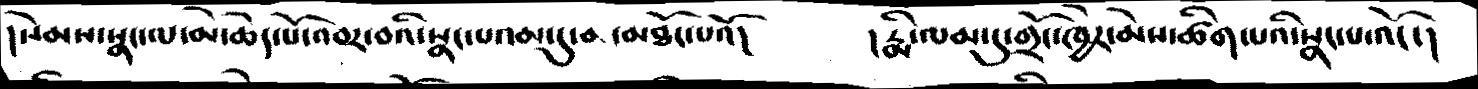།སེམས་སྣང་ལ་མེ་ཆེད་པོ་འབར་བའི་སྣང་པའམ་དུ་བ་མཐོང་པའོ།        །རྨི་ལམ་དུ་གྲོང་ཁྱེར་མེས་ཚིག་པའི་སྣང་པ་འོང་།
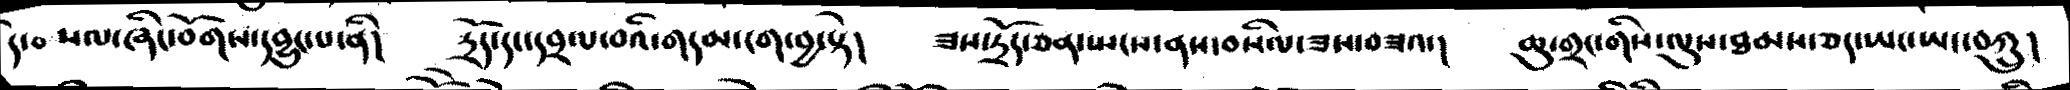དེ་བསལ་ཞིང་བོགས་དབྱུང་པ་ནི།  དྲོད་དང་དབྲལ་བའི་གདམ་ངག་བྱ་སྟེ།    ཟས་དྲོད་ཅན་སྤངས་ནས་བསིལ་ཟས་བཟའ་།  ཆུ་གྲང་གིས་ལུས་ཐམས་ཅད་ཡང་ཡང་བཀྲུ།
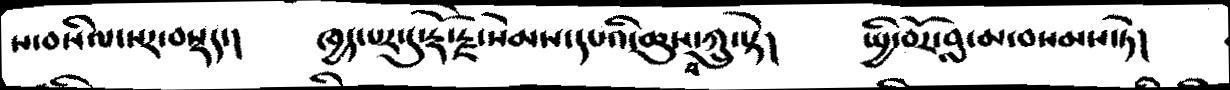ས་བསིལ་སར་བསྡད་།   ཁྱད་པར་དུ་རྡོ་རྗེ་སེམས་དཔའི་ཆུས་བཀྲུ་སྟེ།   སྤྱི་བོར་བླ་མ་བསམས་ཏེ།
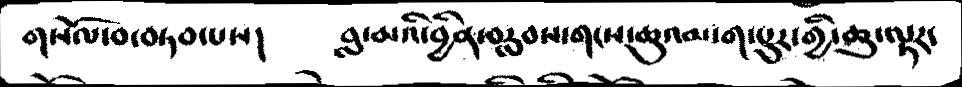གསོལ་བ་བཏབས་པས།   བླ་མའི་བྱིན་བརླབས་གངས་ཆུའམ་ག་པུར་གྱི་ཆུ་ལྟར་
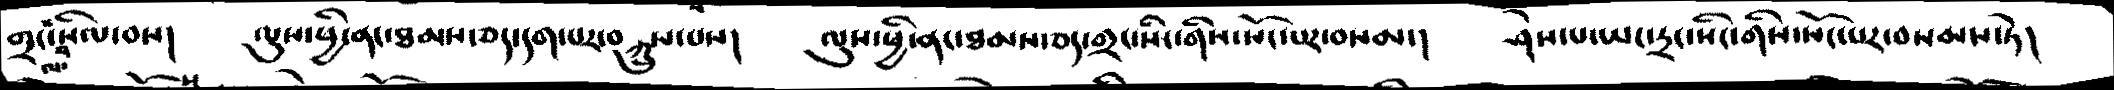གྲང་ལ་བསིལ་བས།  ལུས་ཕྱི་ནང་ཐམས་ཅད་དག་པར་བཀྲུས་པས།   ལུས་ཕྱི་ནང་ཐམས་ཅད་གྲང་སིང་གིས་སོང་པར་བསམ་།   ཤེས་པ་ཡང་དྲང་སིང་གིས་སོང་པར་བསམས་ཏེ།
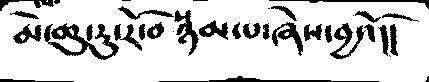མེ་ཆུ་རུ་རོ་བསྙམ་པ་ཞེས་བྱའོ།།
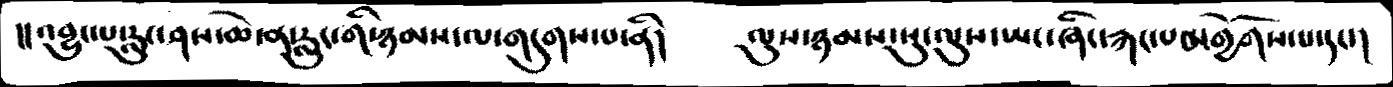།།འབྱུང་པ་རླུང་ཤས་ཆེ་ན་རླུང་གི་ཉམས་ལ་གདུགས་པ་ནི།     ལུས་ཉམས་སུ་ལུས་ཡང་ཞིང་རྐང་པ་འགྱོགས་པ་དང་།
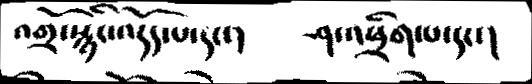འགྲོ་སྙིང་འདོད་པ་དང་།   ཤ་འཕྲིག་པ་དང་།
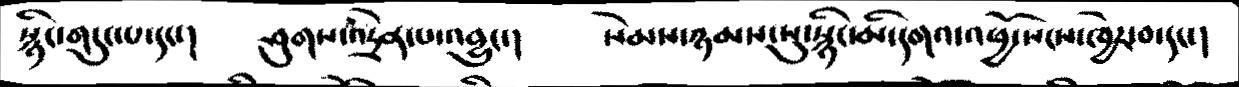སྙིང་གདུང་པ་དང་།    ཤུགས་འདྲེན་པ་འབྱུང་།    སེམས་ཉམས་སུ་སྙིང་མི་དགའ་འཕྱོ་སངས་ཁྱེར་བ་དང་།
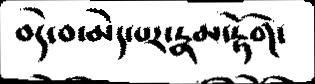བདེ་བ་མེད་པར་རྣམ་རྟོག་
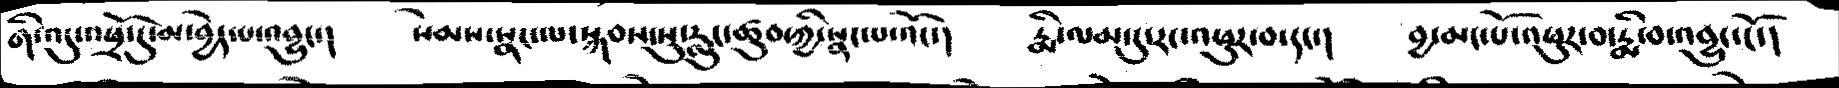གི་འདུ་འཕྲོ་དུ་མ་བྱེད་པ་འབྱུང་།    སེམས་སྣང་ལ་སྐབས་སུ་རླུང་ཚུབ་ཀྱི་སྣང་པ་འོང་།    རྨི་ལམ་དུ་རང་འཕུར་བ་དང་།    བྱ་མང་པོ་འཕུར་བ་རྨི་བ་འབྱུང་ངོ་།
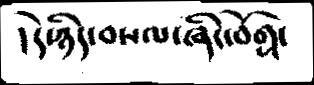། དེ་ཉིད་བསལ་ཞིང་བོགས།
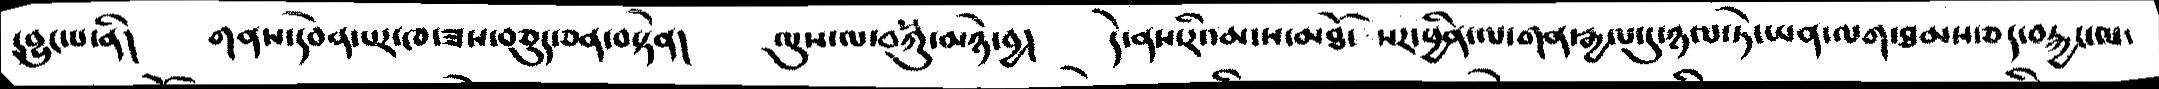དབྱུང་པ་ནི།    གནས་དབེན་པར་ཁ་ཟས་བཅུད་ཅན་བསྟེན།   ལུས་ལ་བསྐུ་མཉེ་བྱ།    དེ་ནས་རིའམ་ས་མཐོ་ སར་ཕྱིན་ལ་གན་རྐྱལ་དུ་ཉལ་ཏེ་ཡན་ལག་ཐམས་ཅད་བརྐྱང་ལ་
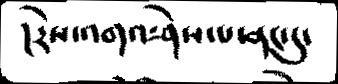།རེས་འགའ་ཤེས་པ་ནང་དུ་
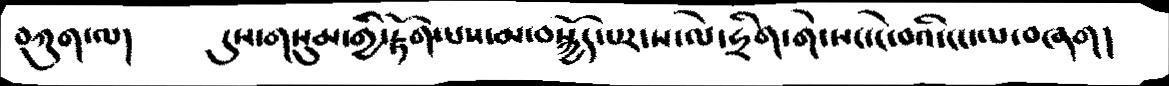བཀུག་ལ།         དུས་གསུམ་གྱི་རྟོག་པས་མ་བསྐྱོད་པར་ས་ལེ་ཧྲིག་གེ་སང་ངེ་བའི་ངང་ལ་བཞག།
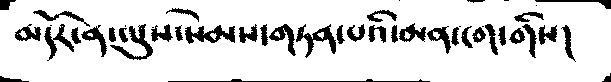མདོར་ན་ལུས་སེམས་གཏན་པའི་མན་ངག་གིས།
